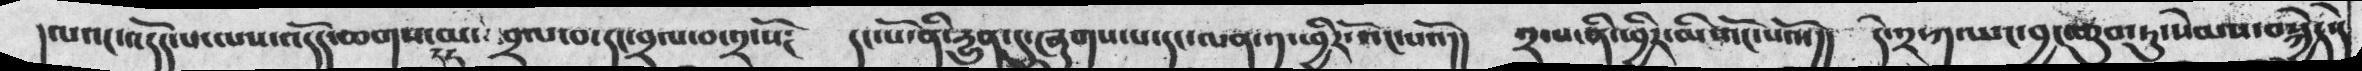།ལའང་འདོད་པ་ལས་འདོད་ཆགས་མ་བྲལ་བ་དང་བྲལ་བ་༢་སོ༴  དང་པོ་ནི་རྱུན་དུ་ཞུགས་པ་དང་ལན་༡་ཕྱིར་འོང་པའོ།།  ༢་པ་ནི་ཕྱིར་མི་འོང་པའོ་།།  དེ་༢་ཀ་ཡང་བྱང་ཆུབ་ཏུ་སེམས་བསྐྱེད་དེ
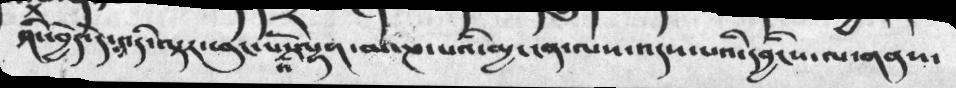ཤིང་བྱེད་དེ་འདི་ལྟར་ཕུང་པོའི་ལྷག་མ་ཎ་པའི་མྱ་ངན་ལས་འདས་པའི་དབྱིངས་ལ་གནས་
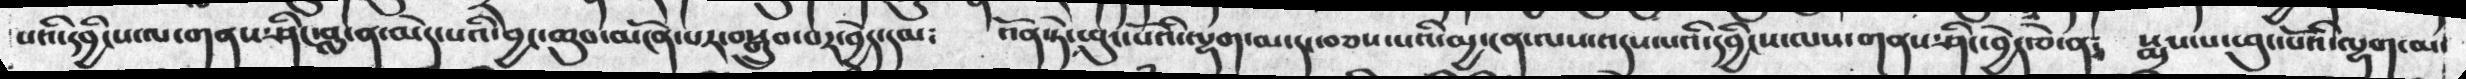པའི་དབྱིངས་ལ་གནས་ཤིང་བླ་ན་མེད་པའི་བྱང་ཆུབ་མངོན་པར་བསྒྲུབ་པར་བྱེད་དམ༴  འོན་ཏེ་ཕུང་པོའི་ལྷག་མ་དང་བཅས་པའི་མྱ་ངན་ལས་འདས་པའི་དབྱིངས་ལས་གནས་ཤིང་བྱེད་ཅེ་ན༴  སྨྲས་པ་ཕུང་པོའི་ལྷག་མ་
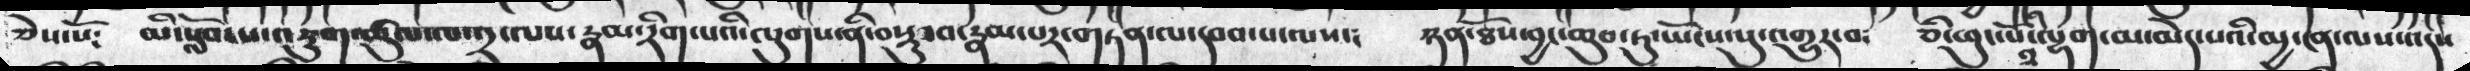ཅེས་སོ༴  མོ་སློབ་པ་འཇུག་ཚུལ་ལ་༢་ལས་རྣམ་རིག་པའི་ལུགས་ནི་བསྡུ་བ་རྣམ་པར་གཏན་པ་དབབ་པ་ལས༴  ཉན་ཐོས་བྱང་ཆུབ་ཏུ་ཡོངས་སུ་འགྱུར་བ༴  ཅི་ཕུང་པོ་ལྷག་མ་མེད་པའི་མྱ་ངན་ལས་འདས་
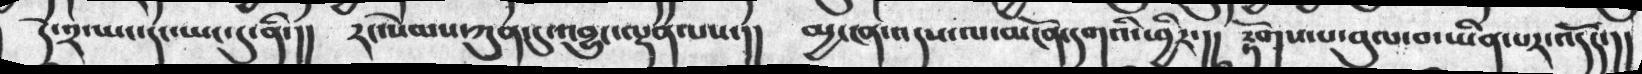དེ་༢་ཡང་དང་ཡང་དུ་ནི་།།  རང་སེམས་ཀུན་དུ་འབྱུང་ལྡན་ལས་།།  མྱ་ངན་འདས་ལ་མངོན་དགའི་ཕྱིར་།།  རྟོགས་པ་བུལ་བ་ཡིན་པར་འདོད་།།
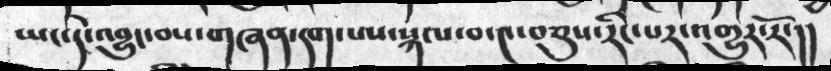ཡང་དེ་འབྱུང་བས་གཞན་དག་པས་སྐལ་བ་༤་བཅུས་རིང་པར་འགྱུར་རོ་།།
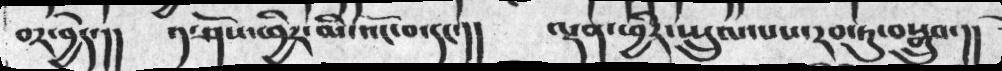བར་བྱེད་།།  ༡་ཤེས་ཕྱིར་མི་འོང་བ་དང་།།  ལྡན་ཕྱིར་སྤྲུལ་པས་རབ་ཏུ་བསྒྲུབ་།།
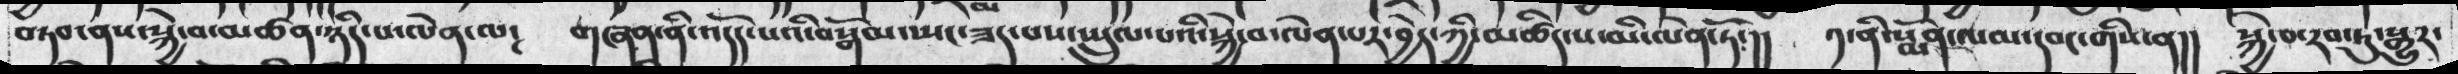བཏབ་ནས་སྐྱེ་བ་མཚན་ཉིད་པ་ལེན་ལ༴  གཞན་ནི་འདོད་པའི་བསྒོམ་ཡང་ཟད་པས་སྤྲུལ་པའི་སྐྱེ་བ་ལེན་པར་བྱེད་ཀྱི་མཚིད་པ་མི་ལེན་ཏོ་།།  ༡་ནི་སྨོན་ལམ་དབང་གིས་ན།།  སྐྱེ་བ་རབ་ཏུ་སྒྱུར་
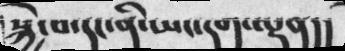སྐྱེ་བ་དང་ནི་ཡང་དག་ལྡན།།
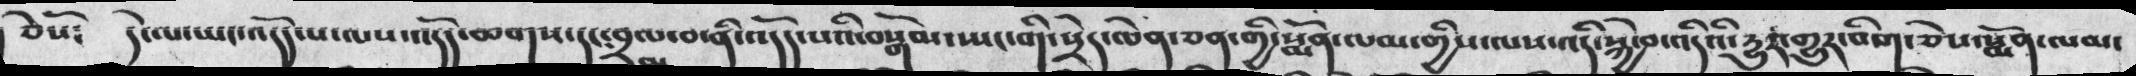ཅེསོ༴  དེ་ལ་ཡང་འདོད་པ་ལས་འདོད་ཆགས་དང་བྲལ་བ་ནི་འདོད་པའི་བསྒོམ་སྤང་གི་སྲེད་ལེན་ཅན་གྱི་སྨོན་ལམ་གྱིས་ལས་འདི་སྐྱེ་བ་འདིའི་རྱུར་གྱུར་ཅིག་ཅེས་སྨོན་ལམ་
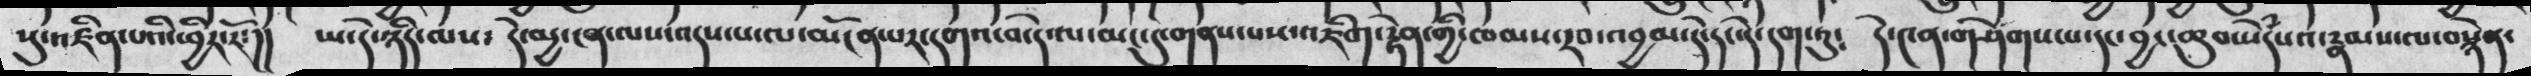སུ་འཛིན་པའི་ཕྱིར་རོ་།།  ཡ་དེ་ཉིད་ལས༴  དེ་མྱ་ངན་ལས་འདས་པ་ལ་མངོན་པར་དགའ་བ་དེ་ལ་མང་དུ་གནས་པས་འཇིག་རྟེན་གྱི་ཁམས་རབ་འབྱམ་དེ་དང་དེ་དག་ཏུ༴  དེ་༤ན་གཤེགས་པ་དང་བྱང་ཆུབ་སེཾདཔའ་རྣམས་ལ་བསྙེན་
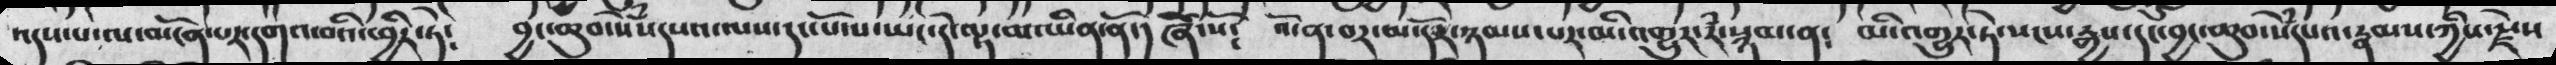འདས་པ་ལ་མངོན་པར་དགའ་བའི་ཕྱིར་ཏེ༴  བྱང་ཆུབ་སེཾདཔའ་ལས་དང་པོ་པ་ཡང་དེ་ལྟ་མ་ཡིན་ནོ་། ཞེ་སོ༴ འོ་ན་བར་མ་དོར་ཉམས་པར་མི་འགྱུར་རཾ་སྙམ་ན༴  མི་འགྱུར་ཏེ་སངས་རྒྱས་དང་བྱང་ཆུབ་སེཾདཔའ་རྣམས་ཀྱིས་རྗེས་
